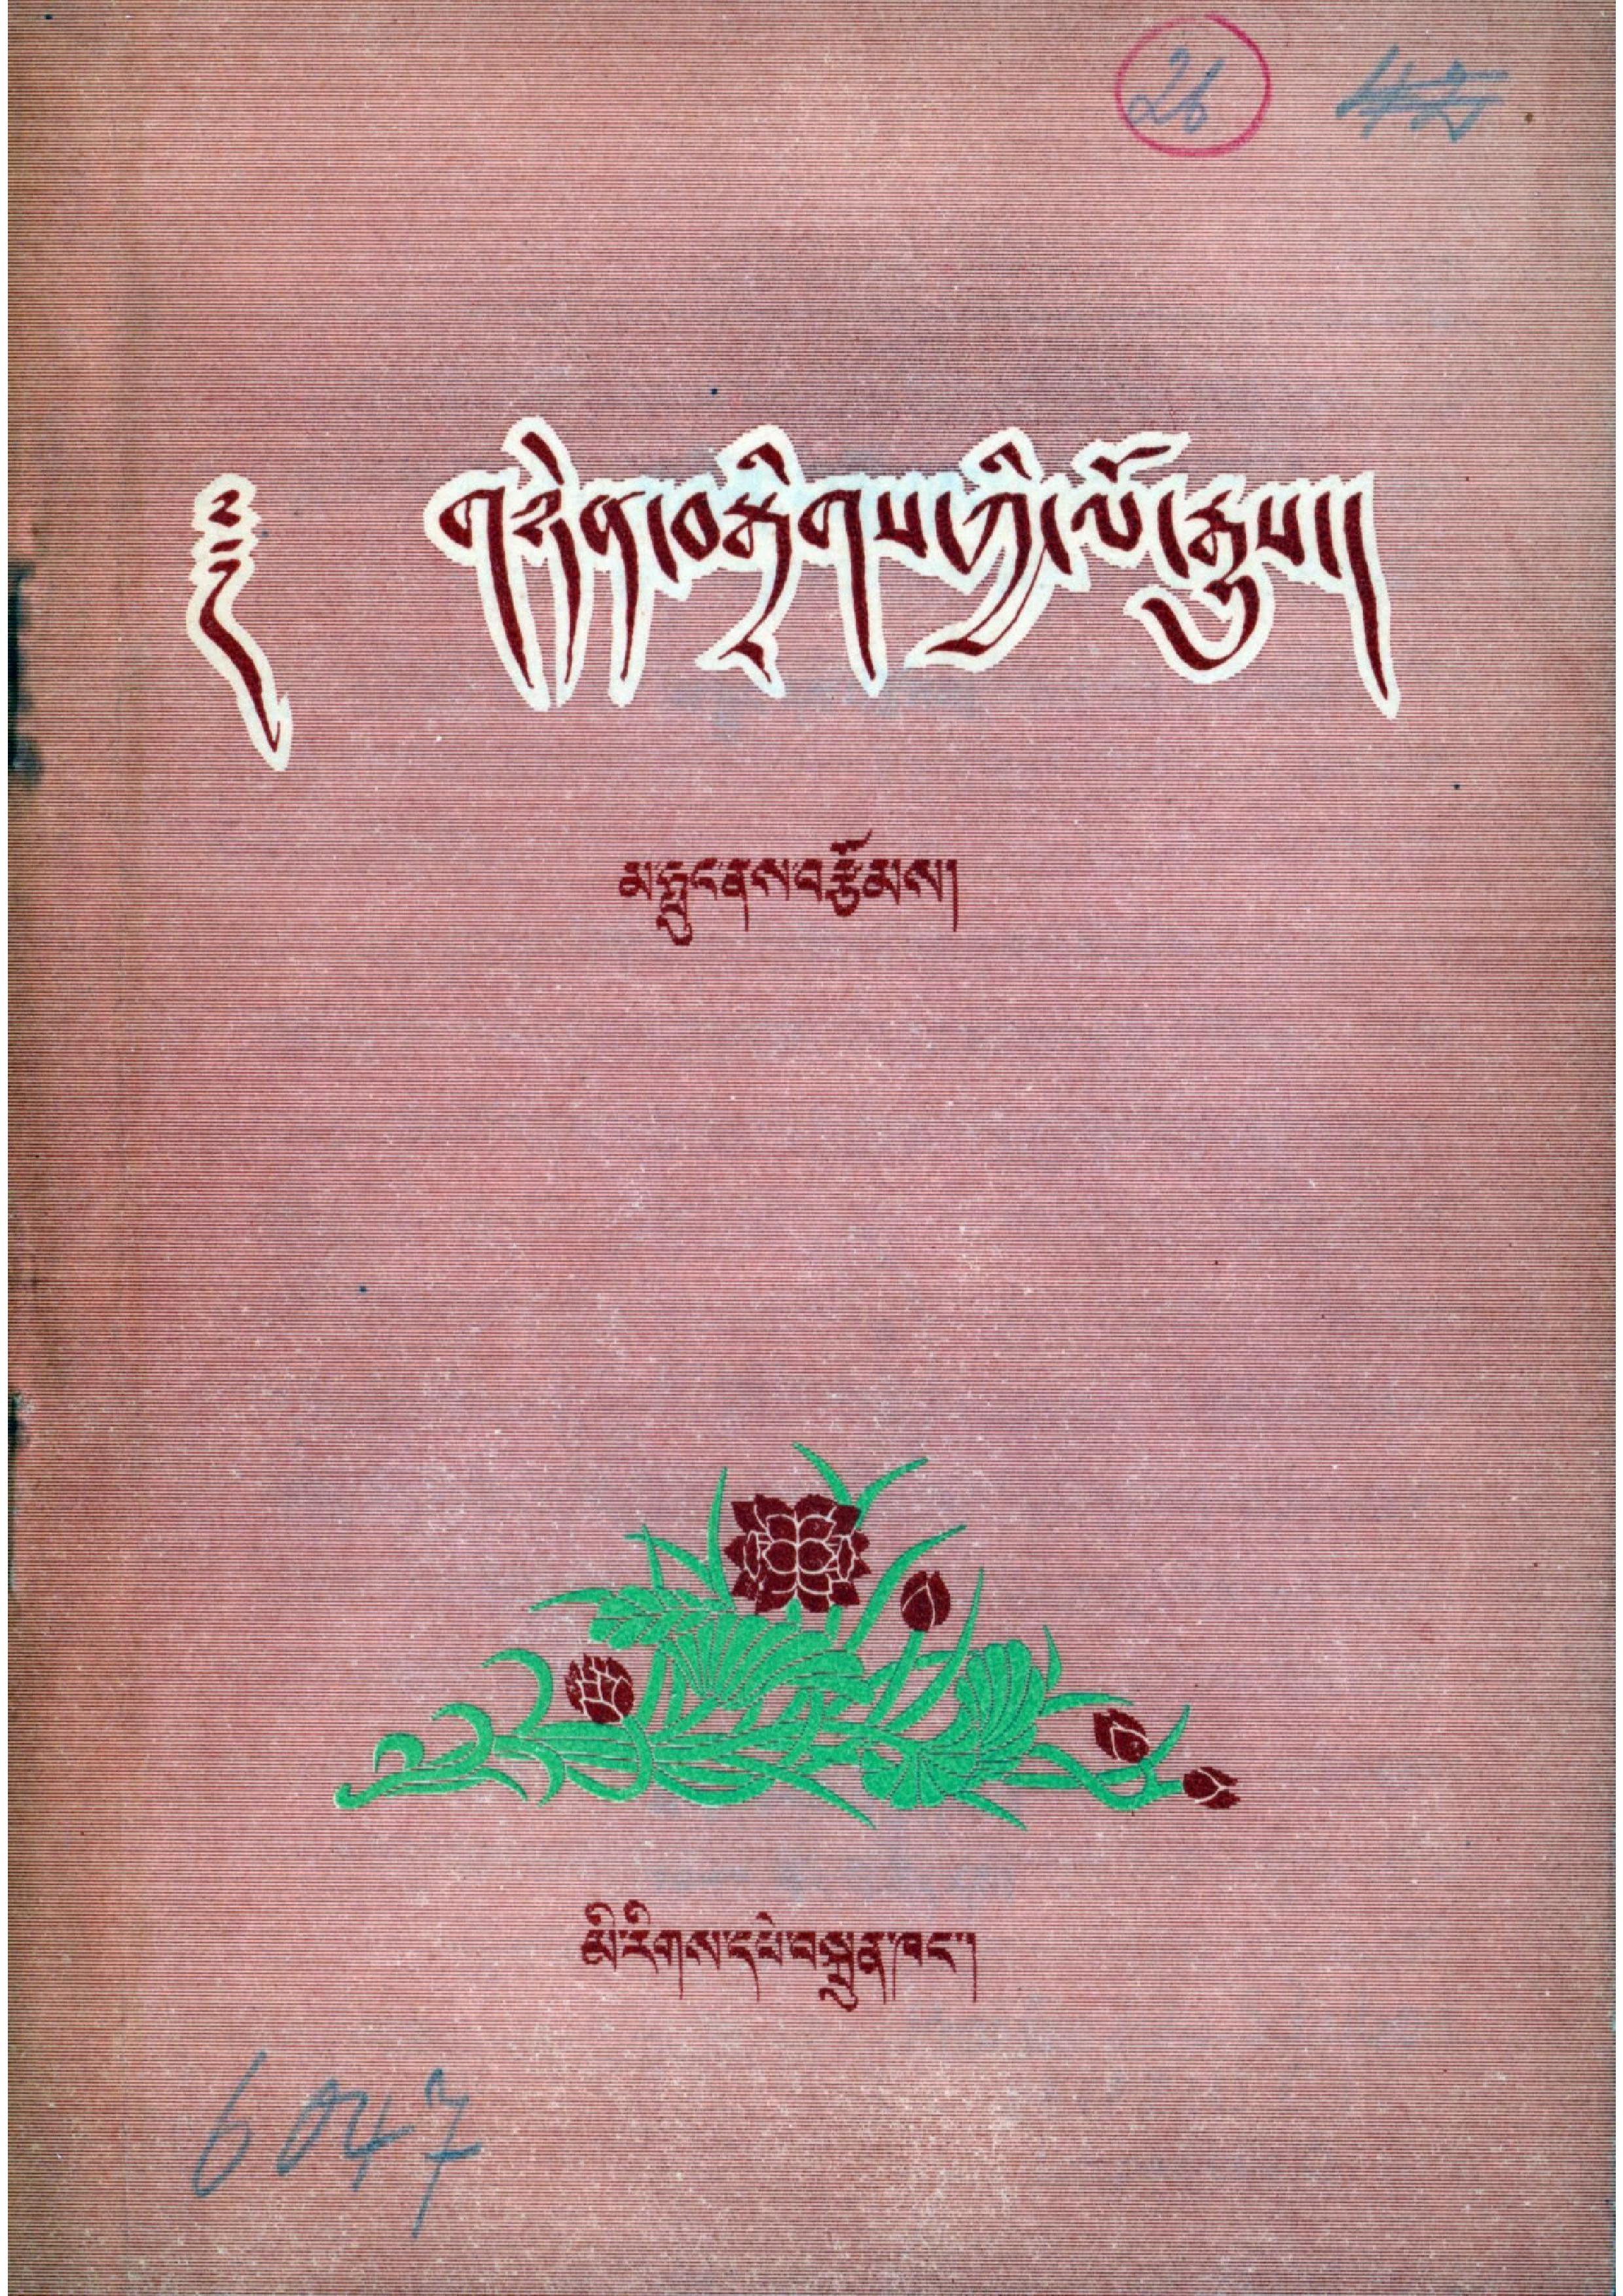༄༅། གཉེན་བསྒྲིགས་ཀྱི་ལོ་རྒྱུས།
མ་ཧྥུང་ནས་བརྩོམས།
མི་རིགས་དཔེ་བསྐྲུན་ཁང་།
